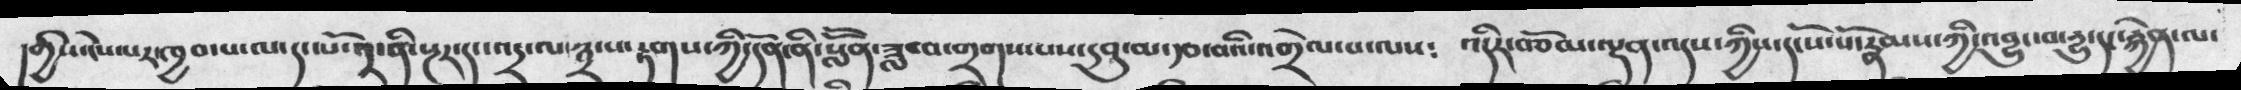།གྱིས་ངེས་པར་ཁྱབ་པ་ལ་དང་པོ་༢་ནི་སྔར་དང་འདྲ་ལ་༣་པ་རྟགས་ཀྱི་དོན་ནི་སློོན་ཟླ་བ་གྲགས་པས་དབུ་མ་རྩ་བའི་འགྲེལ་པ་ལས༴  འདིར་བཅོམ་ལྡན་འདས་ཀྱིས་དངོས་པོ་རྣམས་ཀྱི་འབྱུང་བ་དྱུ་དང་རྐྱེན་ལ་
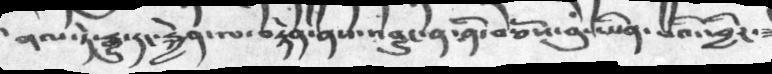གལ་ཏེ་རྒྱུ་དང་རྐྱེན་ལ་བརྟེན་ནས་འབྱུང་ན་བཅོས་བུ་ཡིན་པའི་ཕྱིར་ཟ
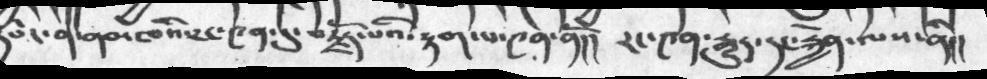དཔེར་ན་ནམཁའི་རང་༤ན་དུ་བརྗོད་པའི་རྟག་པ་ས༤ན་ནོ།།   རང་༤ན་རྒྱུད་དང་རྐྱེན་ལས་ནི།།
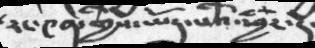རང་༤ན་གྱིས་ཡོད་པའི་ཕྱིར་རོ་
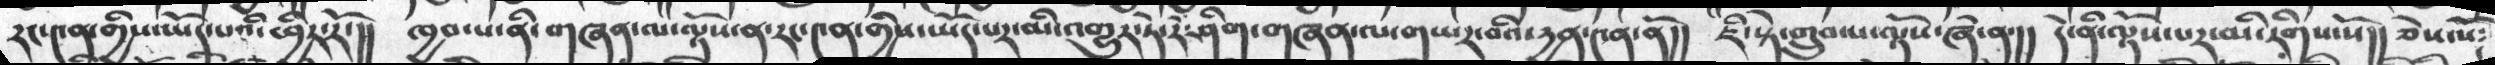རང་༤ན་གྱིས་ཡོད་པའི་ཕྱིར་རོ་།།   ཁྱབ་པ་ནི་ག༴ཞན་ལ་ལྟོས་ན་རང་༤ན་གྱིས་ཡོད་པར་མི་འགྱུར་ཏེ་རེ་ཤིག་གཞན་ལ་གཡར་བའི་དྱན་༤ན་ནོ།།   ཇི་སྟེ་གྲུབ་པ་ལྟོས་ཞེ་ན་།།  དེ་ནི་ལྟོས་པར་མི་རིགས་སོ།།  ཅེས་སོ༴
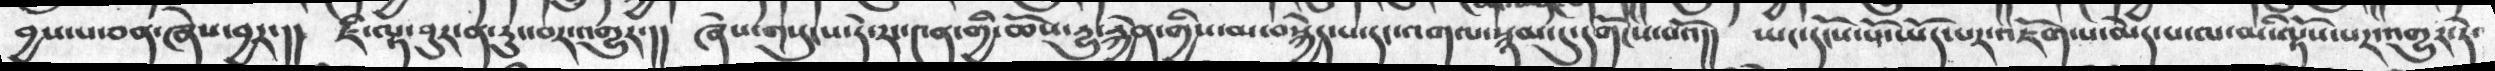བྱས་པ་བན་ཞེས་བྱར་།།   ཇི་ལྟ་བུར་ན་རུང་བར་འགྱུར་།།  ཞེས་གསུངས་དེ་རང་༤ན་གྱི་ཆོས་དྱུ་རྐྱེན་གྱིས་མ་བསྐྱེད་པ་དང་འགལ་སྙམ་དུ་དགོངས་པའོ།།   ཡང་དངོས་པོ་ཡོད་པར་འཇོག་པ་མེད་པ་ལ་མི་ལྟོས་པར་འགྱུར་ཏེ་
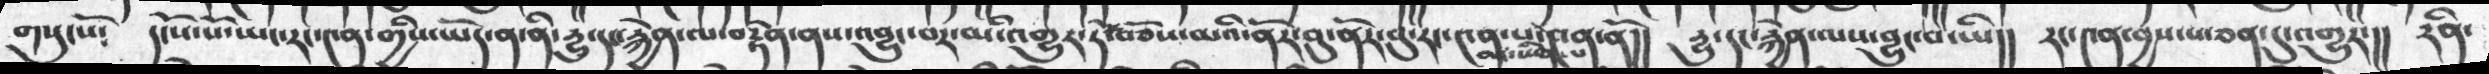གསུངསོ༴   དངོས་པོ་ཡང་རང་༤ན་གྱིས་ཡོད་ན་ནི་དྱུ་དང་རྐྱེན་ལ་བརྟེན་ནས་འབྱུང་བར་མི་འགྱུར་ཏེ་བཅོས་མའི་ནོར་བུ་ནོར་བུ་རང་༤ན་པ་མ་ཡིན་པ་༤ན་ནོ།།  དྱུ་དང་རྐྱེན་ལས་བྱུང་བ་ཡི།།  རང་༤ན་བྱས་པ་ཅན་དུ་འགྱུར་།།  རིན་
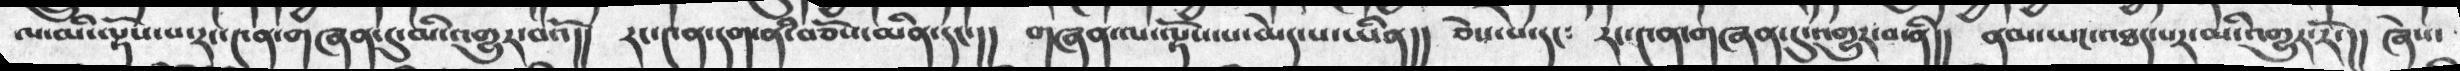ལ་མི་ལྟོས་པ་རང་༤ན་གཞན་དུ་མི་འགྱུར་བའོ།།   རང་༤ན་དག་ནི་བཅོས་མིན་དང་།།  གཞན་ལ་ལྟོས་པ་མེད་པ་ཡིན།།  ཅེས་པ་དང༴   རང་༤ན་གཞན་དུ་འགྱུར་བ་ནི།།   ནམ་ཡང་འཐད་པར་མི་འགྱུར་རོ་།།  ཞེས་
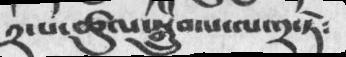༢་པ་ཚུལ་སྒྲུབ་པ་ལ་༢་ཏེ༴
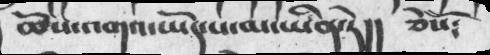ཆོས་འགའ་ཡོད་པ་མ་ཡིན་ཏེ།།   ཅེསོ༴
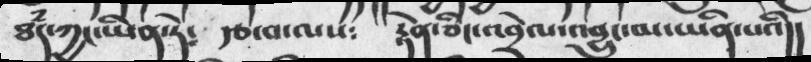ཐཾད་ཀྱང་ཡིན་ཏེ་   རྩ་བ་ལས༴   རྟེན་ཅིང་འབྲེལ་འབྱུང་མ་ཡིན་པའི།།
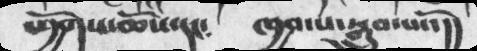ཕྱོགས་ཆོས་དང༴      ཁྱབ་པ་སྒྲུབ་པའོ།།
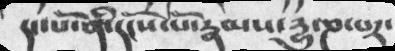དང་པོ་ནི་དངོས་པོ་རྣམས་རྱུ་ཎ་པར་
